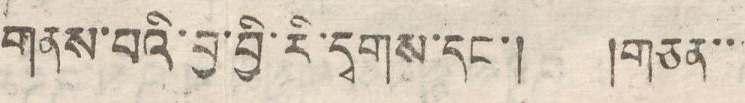གནས་པའི་བྱ་བྱི་རི་དྭགས་དང་། །གཅན་་
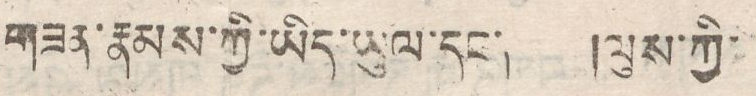གཟན་རྣམས་ཀྱི་ཡིད་ཡུལ་དང་། །ལུས་ཀྱི་
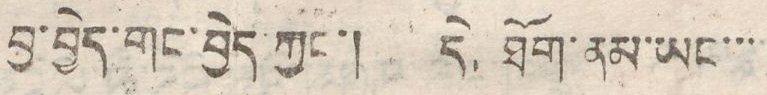བྱ་བྱེད་གང་བྱེད་ཀྱང་། དེ་ཐོག་ནམ་ཡང་་་
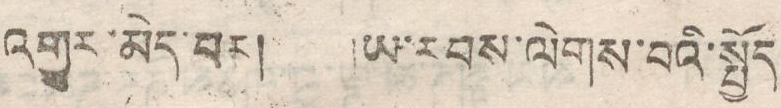འགྱུར་མེད་པར། ཡ་རབས་ལེགས་པའི་སྤྱོད
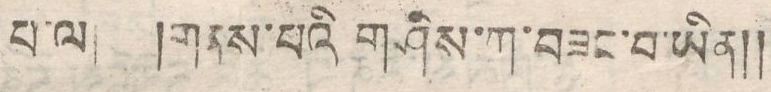པ་ལ། །གནས་པའི གཤིས་ཀ་བཟང་པ་ཡིན།།
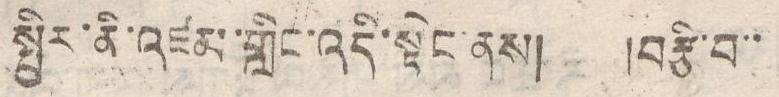སྤྱིར་ནི་འཛམ་གླིང་འདི་སྟེང་ནས། །བརྩི་བ་་
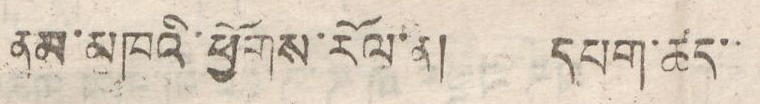ནམ་མཁའི་ཕྱོགས་རོལ་ན། དཔག་ཚད་་
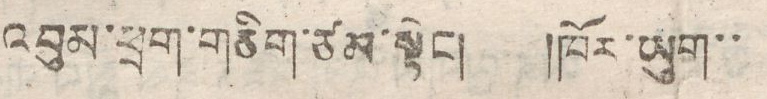འབུམ་ཕྲག་གཅིག་ཙམ་སྟེང། །ཁོར་ཡུག་་
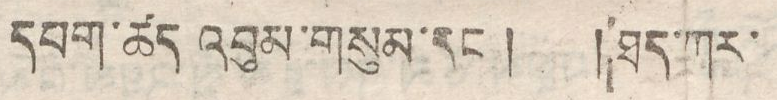དཔག་ཚད འབུམ་གསུམ་དང་། །ཐད་ཀར་
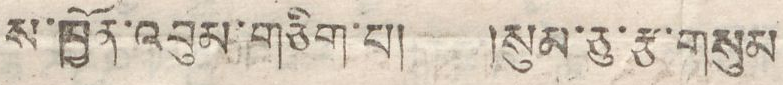ས་ཁྱོན་འབུམ་གཅིག་པ། །སུམ་ཅུ་རྩ་གསུམ
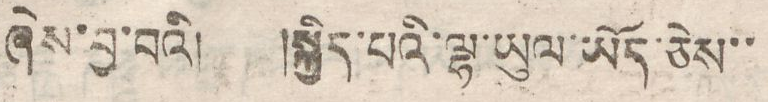ཞེས་བྱ་བའི། །སྐྱིད་པའི་ལྷ་ཡུལ་ཡོད་ཅེས་་
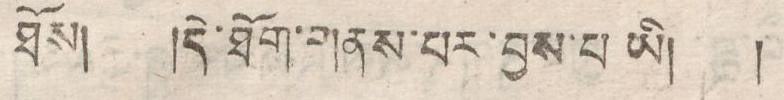ཐོས། །དེ་ཐོག་གནས་པར་བྱས་པ ཡི། །
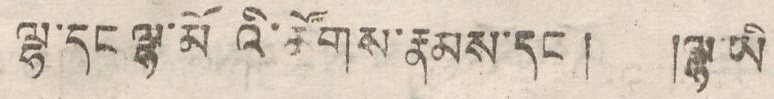ལྷ་དང ལྷ་མོའི་ཚོགས་རྣམས་དང། །ལྷ་ཡི
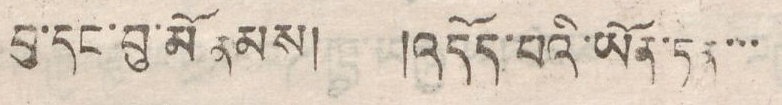བུ་དང་བུ་མོ རྣམས། །འདོད་པའི་ཡོན་ཏན་་་
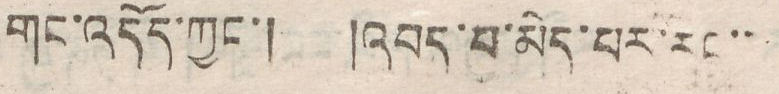གང་འདོད་ཀྱང་། །འབད་པ་མེད་པར་རང་་་
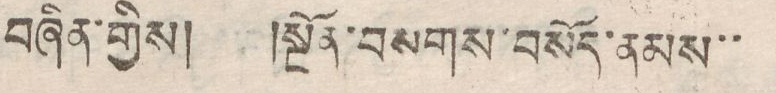བཞིན་གྱིས། །སྔོན་བསགས་བསོད་ནམས་་
